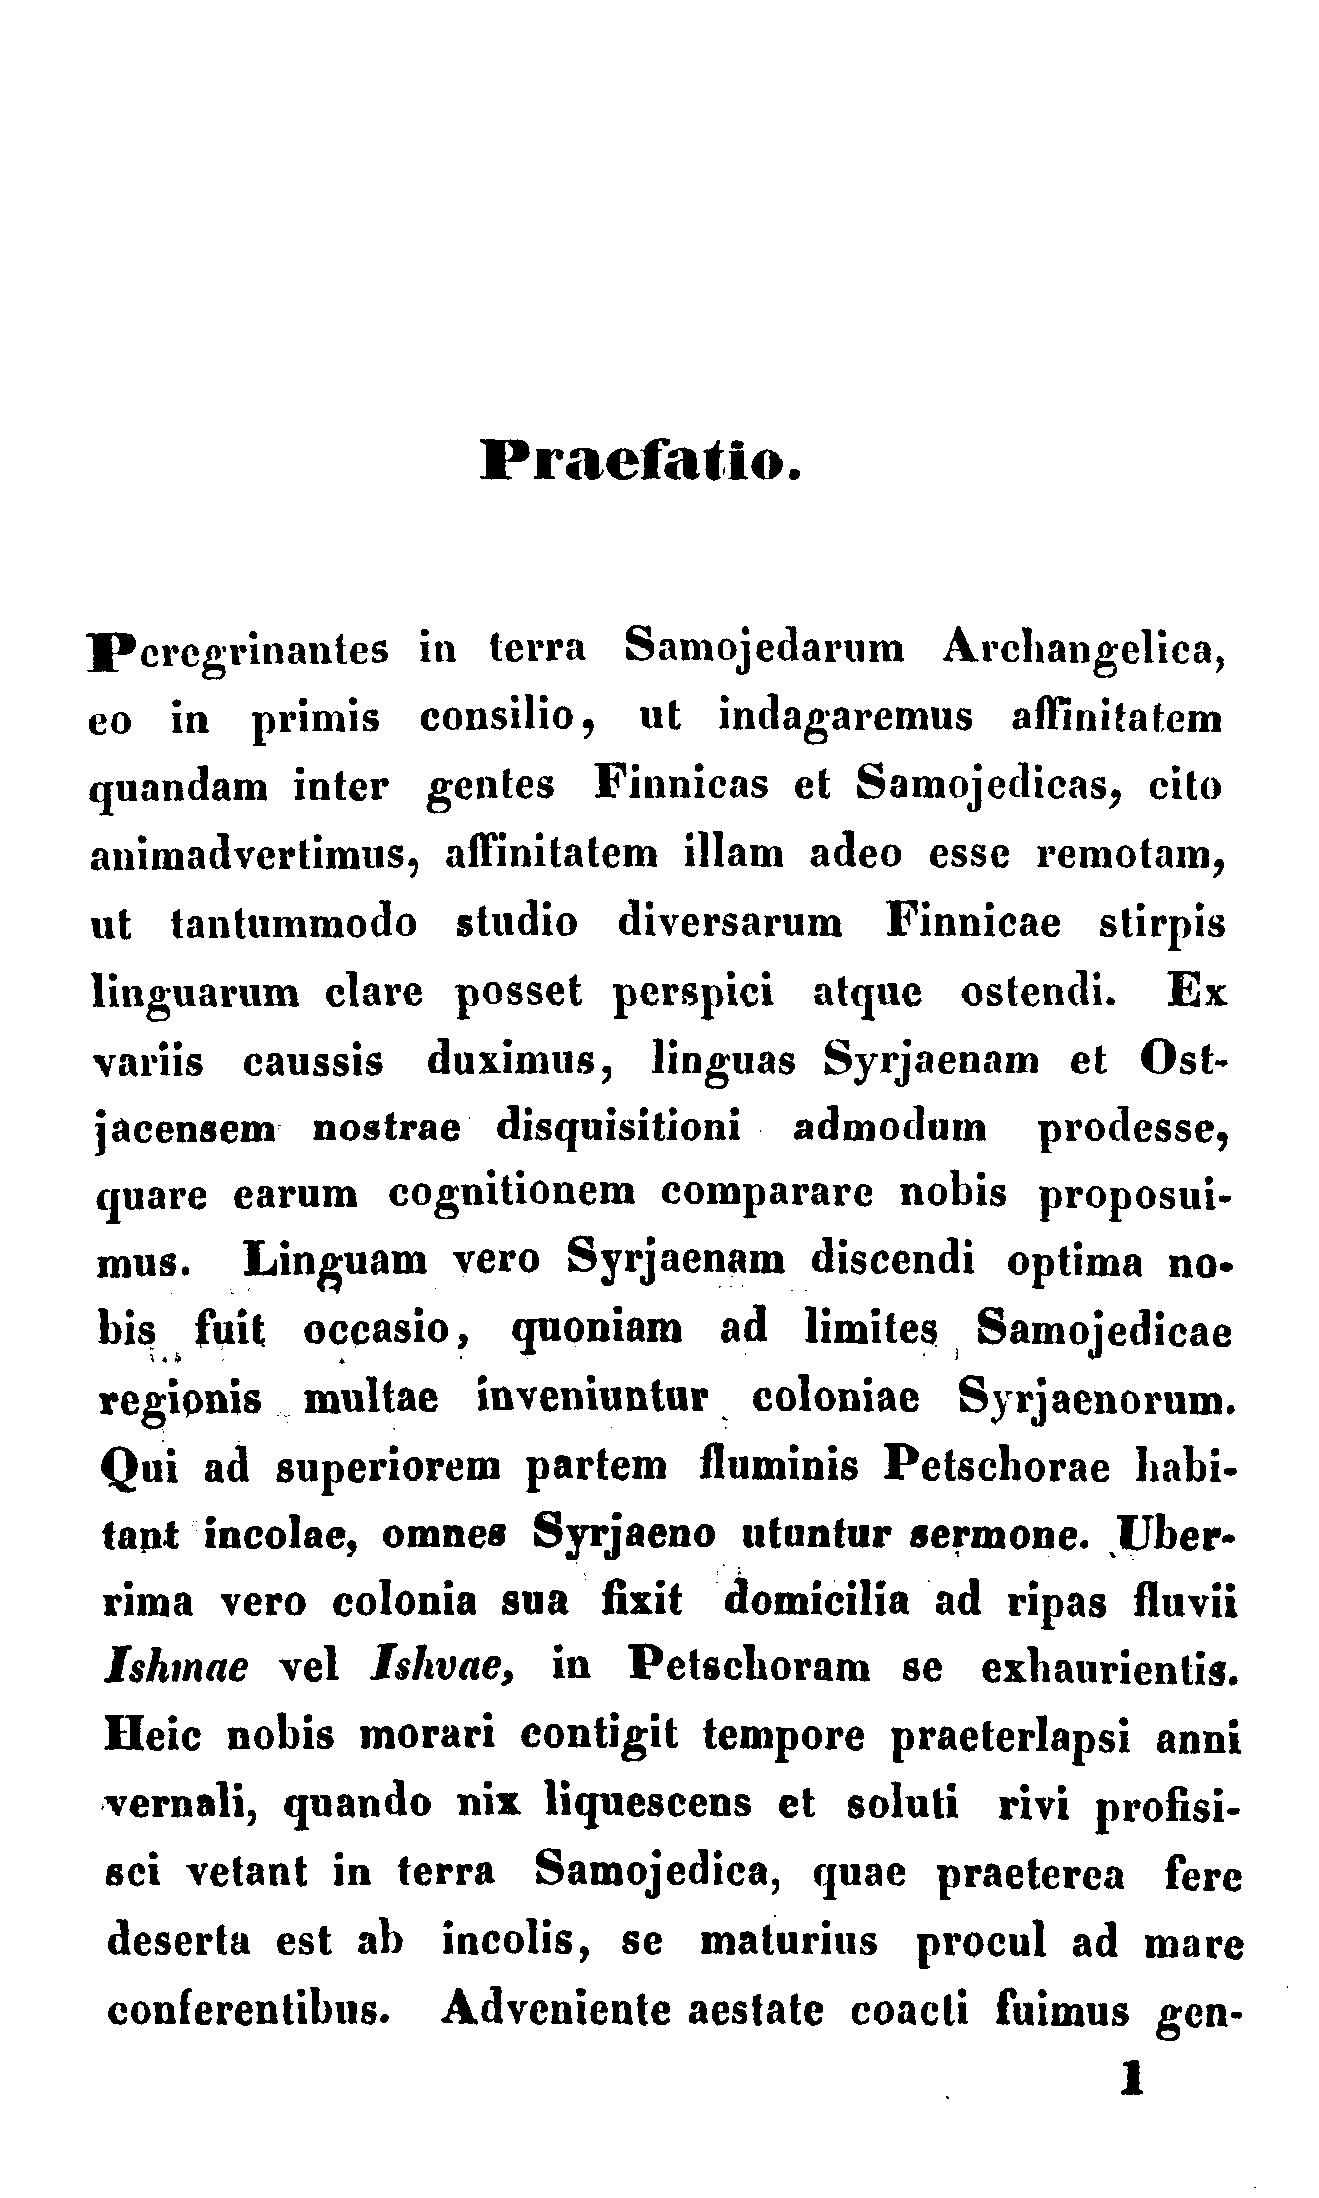Praefatio.
Peregrinantes in terra Samojedarum Archangelica,
eo in primis consilio, ut indagaremus assinitatem
quandam inter gentes Finnicas et Samojedicas, cito
animadvertimus, affinitatem illam adeo esse remotam,
ut tantummodo studio diversarum Finnicae stirpis
linguarum clare posset perspici atque ostendi. Ex
variis caussis duximus, linguas Syrjaenam et Ost-
jacensem nostrae disquisitioni admodum prodesse,
quare earum cognitionem comparare nobis proposui-
mus. Linguam vero Syrjaenam discendi optima no-
bis fuit occasio, quoniam ad limites Samojedicae
regionis multae inveniuntur coloniae Syrjaenorum.
Qui ad superiorem partem fluminis Petschorae habi-
tant incolae, omnes Syrjaeno utuntur sermone. Uber-
rima vero colonia sua fixit domicilia ad ripas fluvii
Ishmae vel Ishvae, in Petschoram se exhaurientis.
Heic nobis morari contigit tempore praeterlapsi anni
vernali, quando nix liquescens et soluti rivi profisi-
sei vetant in terra Samojedica, quae praeterea fere
deserta est ab incolis, se maturius procul ad mare
conferentibus. Adveniente aestate coacti fuimus gen-
1
